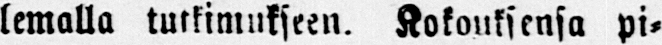limalla tutkimukseen. Kokouksensa pi-
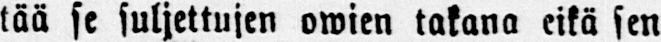tää se suljettujen owien takana eikä sen
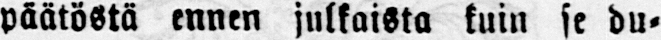päätöstä ennen julkaista kuin se du-
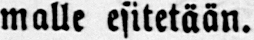malle esitetään.
